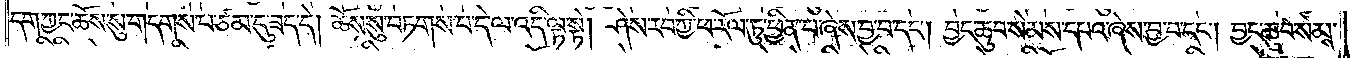དག་ཀྱང་ཆོས་སུ་གདགས་པ་ཙམ་དུ་ཟད་དེ། ཆོས་སུ་བཏགས་པ་དེ་ལ་འདི་ལྟ་སྟེ། ཤེས་རབ་ཀྱི་ཕ་རོལ་ཏུ་ཕྱིན་པ་ཞེས་བྱ་བ་དང༌། བྱང་ཆུབ་སེམས་དཔའ་ཞེས་བྱ་བ་དང༌། བྱང་ཆུབ་སེམས་
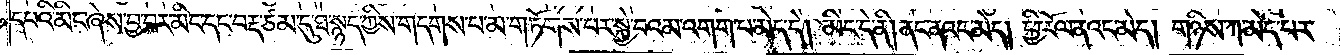དཔའི་མིང་ཞེས་བྱ་བར་མིང་དང་བརྡ་ཙམ་དུ་ཐ་སྙད་ཀྱིས་གདགས་པ་མ་གཏོགས་པར་སྐྱེ་བའམ་འགག་པ་མེད་དེ། མིང་དེ་ནི། ནང་ནའང་མེད། ཕྱི་རོལ་ནའང་མེད། གཉིས་ཀ་མེད་པར་
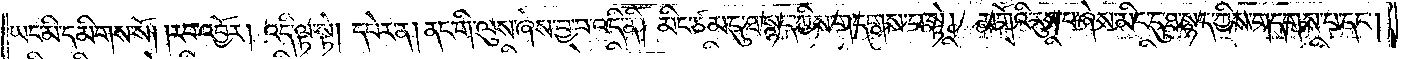ཡང་མི་དམིགས་སོ། །རབ་འབྱོར། འདི་ལྟ་སྟེ། དཔེར་ན། ནང་གི་ལུས་ཞེས་བྱ་བ་འདི་ནི། མིང་ཙམ་དུ་ཐ་སྙད་ཀྱིས་གདགས་པ་སྟེ། མགོའི་རུས་པ་ཞེས་མིང་དུ་ཐ་སྙད་ཀྱིས་གདགས་པ་དང༌།
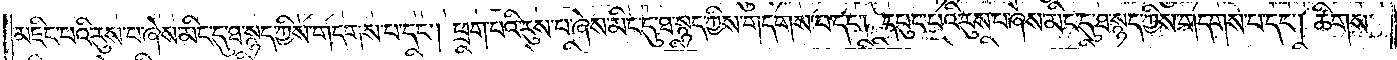མཇིང་པའི་རུས་པ་ཞེས་མིང་དུ་ཐ་སྙད་ཀྱིས་གདགས་པ་དང༌། ཕྲག་པའི་རུས་པ་ཞེས་མིང་དུ་ཐ་སྙད་ཀྱིས་གདགས་པ་དང༌། དཔུང་པའི་རུས་པ་ཞེས་མིང་དུ་ཐ་སྙད་ཀྱིས་གདགས་པ་དང༌། ཚིགས་
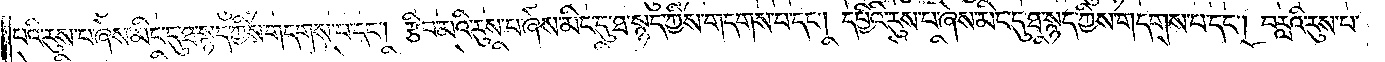པའི་རུས་པ་ཞེས་མིང་དུ་ཐ་སྙད་ཀྱིས་གདགས་པ་དང༌། རྩིབ་མའི་རུས་པ་ཞེས་མིང་དུ་ཐ་སྙད་ཀྱིས་གདགས་པ་དང༌། དཔྱིའི་རུས་པ་ཞེས་མིང་དུ་ཐ་སྙད་ཀྱིས་གདགས་པ་དང༌། བརླའི་རུས་པ་
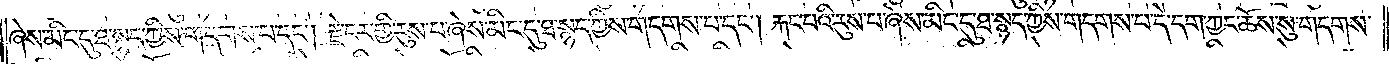ཞེས་མིང་དུ་ཐ་སྙད་ཀྱིས་གདགས་པ་དང༌། རྗེ་ངར་གྱི་རུས་པ་ཞེས་མིང་དུ་ཐ་སྙད་ཀྱིས་གདགས་པ་དང༌། རྐང་པའི་རུས་པ་ཞེས་མིང་དུ་ཐ་སྙད་ཀྱིས་གདགས་པ་དེ་དག་ཀྱང་ཆོས་སུ་གདགས་
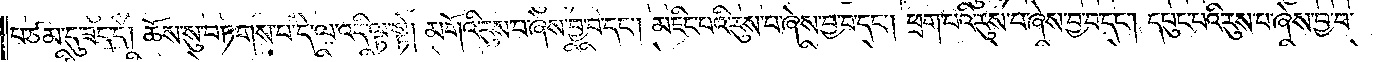པ་ཙམ་དུ་ཟད་དེ། ཆོས་སུ་བཏགས་པ་དེ་ལ་འདི་ལྟ་སྟེ། མགོའི་རུས་པ་ཞེས་བྱ་བ་དང༌། མཇིང་པའི་རུས་པ་ཞེས་བྱ་བ་དང༌། ཕྲག་པའི་རུས་པ་ཞེས་བྱ་བ་དང༌། དཔུང་པའི་རུས་པ་ཞེས་བྱ་བ་
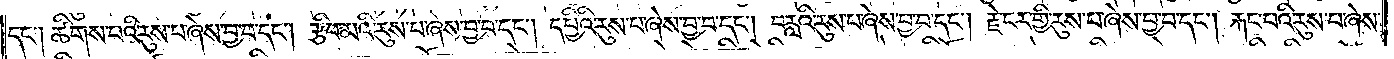དང༌། ཚིགས་པའི་རུས་པ་ཞེས་བྱ་བ་དང༌། རྩིབ་མའི་རུས་པ་ཞེས་བྱ་བ་དང༌། དཔྱིའི་རུས་པ་ཞེས་བྱ་བ་དང༌། བརླའི་རུས་པ་ཞེས་བྱ་བ་དང༌། རྗེ་ངར་གྱི་རུས་པ་ཞེས་བྱ་བ་དང༌། རྐང་པའི་རུས་པ་ཞེས་
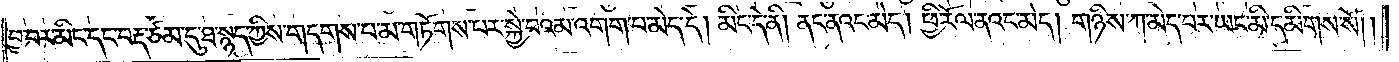བྱ་བར་མིང་དང་བརྡ་ཙམ་དུ་ཐ་སྙད་ཀྱིས་གདགས་པ་མ་གཏོགས་པར་སྐྱེ་བའམ་འགག་པ་མེད་དེ། མིང་དེ་ནི། ནང་ནའང་མེད། ཕྱི་རོལ་ནའང་མེད། གཉིས་ཀ་མེད་པར་ཡང་མི་དམིགས་སོ། །
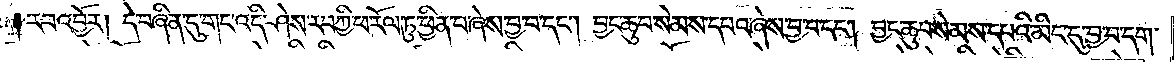རབ་འབྱོར། དེ་བཞིན་དུ་གང་འདི་ཤེས་རབ་ཀྱི་ཕ་རོལ་ཏུ་ཕྱིན་པ་ཞེས་བྱ་བ་དང༌། བྱང་ཆུབ་སེམས་དཔའ་ཞེས་བྱ་བ་དང༌། བྱང་ཆུབ་སེམས་དཔའི་མིང་དུ་བྱ་བ་དག་
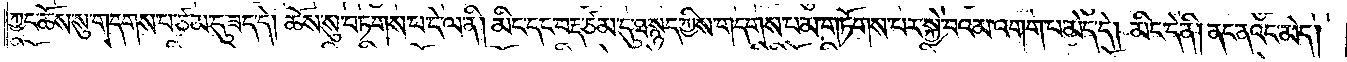ཀྱང་ཆོས་སུ་གདགས་པ་ཙམ་དུ་ཟད་དེ། ཆོས་སུ་བཏགས་པ་དེ་ལ་ནི། མིང་དང་བརྡ་ཙམ་དུ་ཐ་སྙད་ཀྱིས་གདགས་པ་མ་གཏོགས་པར་སྐྱེ་བའམ་འགག་པ་མེད་དེ། མིང་དེ་ནི། ནང་ནའང་མེད།
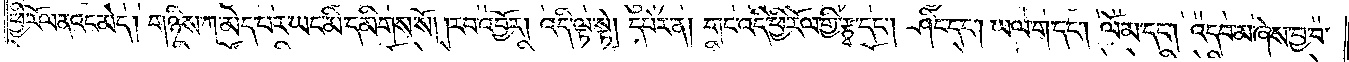ཕྱི་རོལ་ནའང་མེད། གཉིས་ཀ་མེད་པར་ཡང་མི་དམིགས་སོ། །རབ་འབྱོར། འདི་ལྟ་སྟེ། དཔེར་ན། གང་འདི་ཕྱི་རོལ་གྱི་རྩྭ་དང༌། ཤིང་དང༌། ཡལ་ག་དང༌། ལོ་མ་དང༌། འདབ་མ་ཞེས་བྱ་བ་
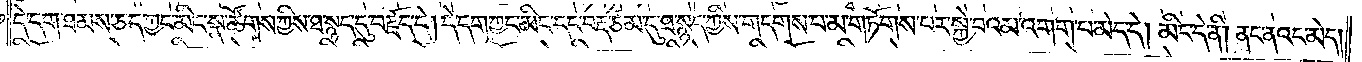དེ་དག་ཐམས་ཅད་ཀྱང་མིང་སྣ་ཚོགས་ཀྱིས་ཐ་སྙད་དུ་བརྗོད་དེ། དེ་དག་ཀྱང་མིང་དང་བརྡ་ཙམ་དུ་ཐ་སྙད་ཀྱིས་གདགས་པ་མ་གཏོགས་པར་སྐྱེ་བའམ་འགག་པ་མེད་དེ། མིང་དེ་ནི། ནང་ནའང་མེད།
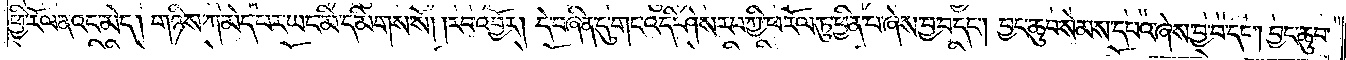ཕྱི་རོལ་ནའང་མེད། གཉིས་ཀ་མེད་པར་ཡང་མི་དམིགས་སོ། །རབ་འབྱོར། དེ་བཞིན་དུ་གང་འདི་ཤེས་རབ་ཀྱི་ཕ་རོལ་ཏུ་ཕྱིན་པ་ཞེས་བྱ་བ་དང༌། བྱང་ཆུབ་སེམས་དཔའ་ཞེས་བྱ་བ་དང༌། བྱང་ཆུབ་
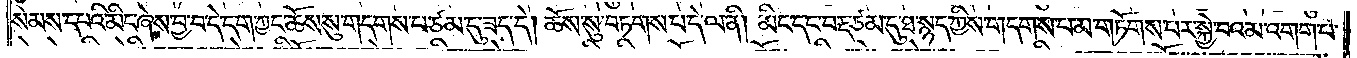སེམས་དཔའི་མིང་ཞེས་བྱ་བ་དེ་དག་ཀྱང་ཆོས་སུ་གདགས་པ་ཙམ་དུ་ཟད་དེ། ཆོས་སུ་བཏགས་པ་དེ་ལ་ནི། མིང་དང་བརྡ་ཙམ་དུ་ཐ་སྙད་ཀྱིས་གདགས་པ་མ་གཏོགས་པར་སྐྱེ་བའམ་འགག་པ་
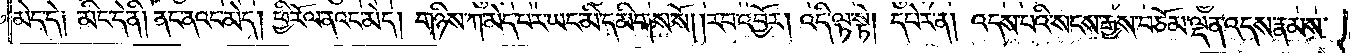མེད་དེ༑ མིང་དེ་ནི། ནང་ནའང་མེད། ཕྱི་རོལ་ནའང་མེད། གཉིས་ཀ་མེད་པར་ཡང་མི་དམིགས་སོ། །རབ་འབྱོར། འདི་ལྟ་སྟེ། དཔེར་ན། འདས་པའི་སངས་རྒྱས་བཅོམ་ལྡན་འདས་རྣམས་
